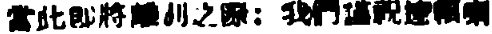當此卽將離別之際：我們謹祝達賴喇
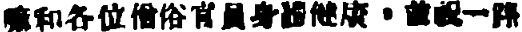嘛和各位僧俗官員身體健康，並祝一路
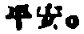平安。
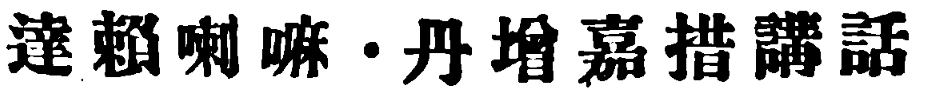達賴喇嘛・丹增嘉措講話
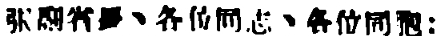張副省長、各位同志、各位同胞：
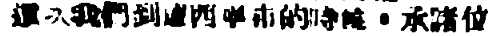這次我們到達西寧市的時候，承諸位
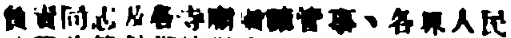負責同志及各寺廟喇嘛管事、各界人民
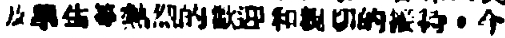及學生等熱烈的歡迎和親切的接待。今
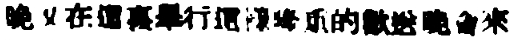晚又在這裏舉行這樣隆重的歡送晚會來
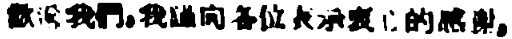歡送我們，我謹向各位表示衷心的感謝，
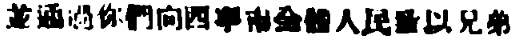並通過你們向西寧市全體人民致以兄弟
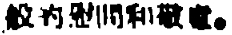般的慰問和敬意。
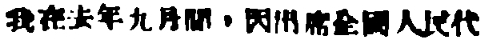我在去年九月間，因出席全國人民代
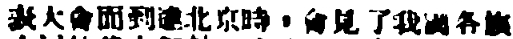表大會而到達北京時，會見了我國各族
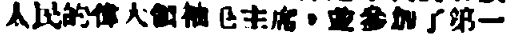人民的偉大領袖毛主席，並參加了第一
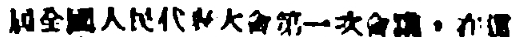屆全國人民代表大會第一次會議，在這
